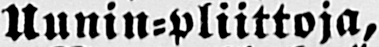Uunin-pliittoja,
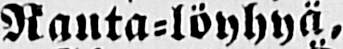Rauta-löyhyä,
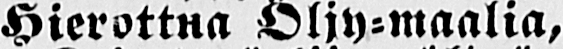Hierottua Öljy-maalia,
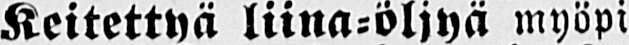Keitettyä liina-öljyä myöpi
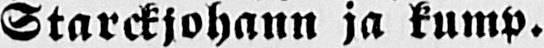Starckjohann ja kump.
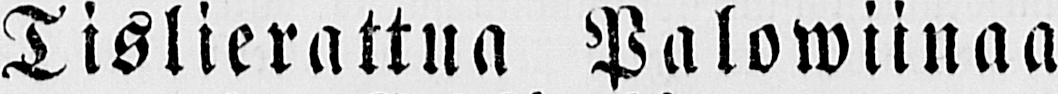Tislierattua Palowiinaa
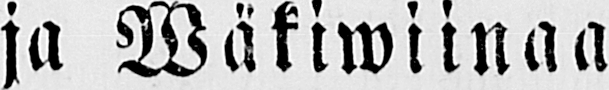ja Wäkiwiinaa
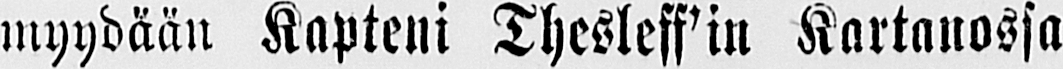myydään Kapteni Theslesff’in Kartanossa
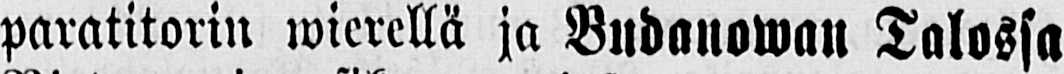paratitorin wierellä ja Budanowan Talossa
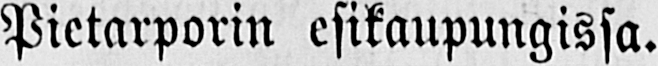Pietarporin esikaupungissa.
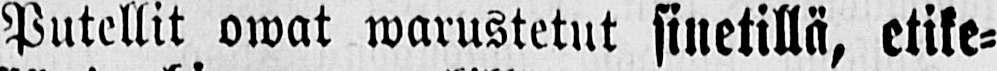Putellit owat warustetut sinetillä, etike-
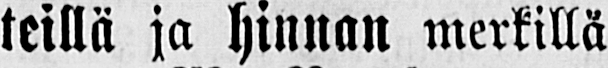teillä ja hinnan merkillä
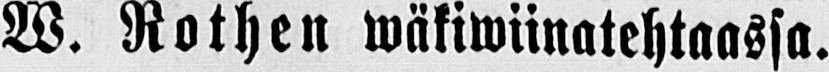W. Rothen wäkiwiinatehtaassa.
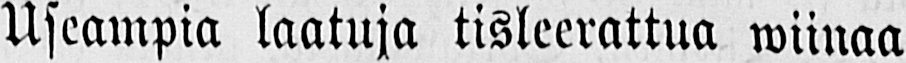Useampia laatuja tisleerattua wiinaa
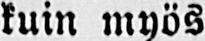kuin myös
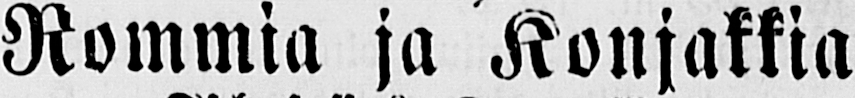Rommia ja Konjakkia
